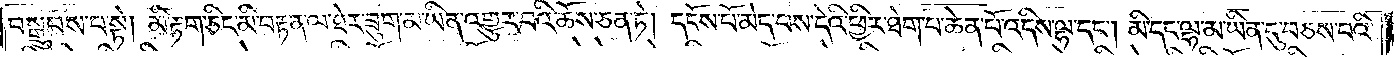བསྒྲུབས་པ་སྟེ། མི་རྟག་ཅིང་མི་བརྟན་ལ་ཐེར་ཟུག་མ་ཡིན་འགྱུར་བའི་ཆོས་ཅན་ཏེ། དངོས་པོ་མེད་པས་དེའི་ཕྱིར་ཐེག་པ་ཆེན་པོ་འདིས་ལྷ་དང༌། མི་དང་ལྷ་མ་ཡིན་དུ་བཅས་པའི་
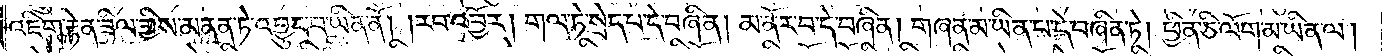འཇིག་རྟེན་ཟིལ་གྱིས་མནན་ཏེ་འབྱུང་བ་ཡིན་ནོ། །རབ་འབྱོར། གལ་ཏེ་སྲེད་པ་དེ་བཞིན། མ་ནོར་བ་དེ་བཞིན། གཞན་མ་ཡིན་པ་དེ་བཞིན་ཏེ། ཕྱིན་ཅི་ལོག་མ་ཡིན་ལ།
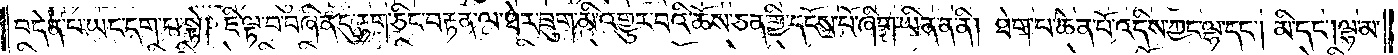བདེན་པ་ཡང་དག་པ་སྟེ། ཇི་ལྟ་བ་བཞིན་དུ་རྟག་ཅིང་བརྟན་ལ་ཐེར་ཟུག་མི་འགྱུར་བའི་ཆོས་ཅན་གྱི་དངོས་པོ་ཞིག་ཡིན་ན་ནི། ཐེག་པ་ཆེན་པོ་འདིས་ཀྱང་ལྷ་དང༌། མི་དང༌། ལྷ་མ་
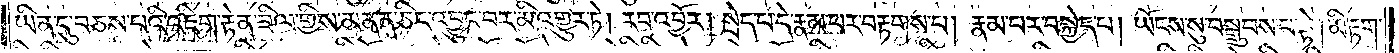ཡིན་དུ་བཅས་པའི་འཇིག་རྟེན་ཟིལ་གྱིས་མནན་ཅིང་འབྱུང་བར་མི་འགྱུར་ཏེ། རབ་འབྱོར། སྲེད་པ་དེ་རྣམ་པར་བརྟགས་པ། རྣམ་པར་བསྐྱེད་པ། ཡོངས་སུ་བསྒྲུབས་པ་སྟེ། མི་རྟག་
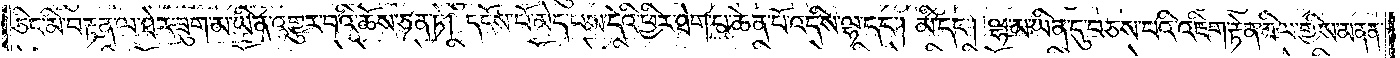ཅིང་མི་བརྟན་ལ་ཐེར་ཟུག་མ་ཡིན་འགྱུར་བའི་ཆོས་ཅན་ཏེ། དངོས་པོ་མེད་པས་དེའི་ཕྱིར་ཐེག་པ་ཆེན་པོ་འདིས་ལྷ་དང༌། མི་དང༌། ལྷ་མ་ཡིན་དུ་བཅས་པའི་འཇིག་རྟེན་ཟིལ་གྱིས་མནན་
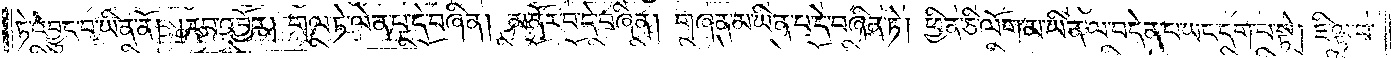ཏེ་འབྱུང་བ་ཡིན་ནོ། །རབ་འབྱོར། གལ་ཏེ་ལེན་པ་དེ་བཞིན། མ་ནོར་བ་དེ་བཞིན། གཞན་མ་ཡིན་པ་དེ་བཞིན་ཏེ། ཕྱིན་ཅི་ལོག་མ་ཡིན་ལ་བདེན་པ་ཡང་དག་པ་སྟེ། ཇི་ལྟ་བ་
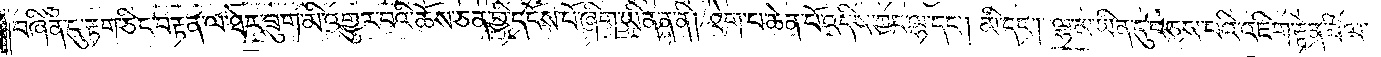བཞིན་དུ་རྟག་ཅིང་བརྟན་ལ་ཐེར་ཟུག་མི་འགྱུར་བའི་ཆོས་ཅན་གྱི་དངོས་པོ་ཞིག་ཡིན་ན་ནི། ཐེག་པ་ཆེན་པོ་འདིས་ཀྱང་ལྷ་དང༌། མི་དང༌། ལྷ་མ་ཡིན་དུ་བཅས་པའི་འཇིག་རྟེན་ཟིལ་
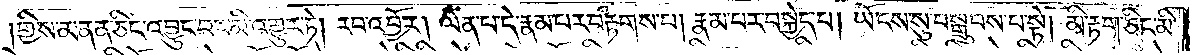གྱིས་མནན་ཅིང་འབྱུང་བར་མི་འགྱུར་ཏེ། རབ་འབྱོར། ལེན་པ་དེ་རྣམ་པར་བརྟགས་པ། རྣམ་པར་བསྐྱེད་པ། ཡོངས་སུ་བསྒྲུབས་པ་སྟེ། མི་རྟག་ཅིང་མི་
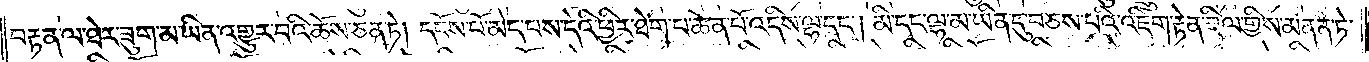བརྟན་ལ་ཐེར་ཟུག་མ་ཡིན་འགྱུར་བའི་ཆོས་ཅན་ཏེ། དངོས་པོ་མེད་པས་དེའི་ཕྱིར་ཐེག་པ་ཆེན་པོ་འདིས་ལྷ་དང༌། མི་དང་ལྷ་མ་ཡིན་དུ་བཅས་པའི་འཇིག་རྟེན་ཟིལ་གྱིས་མནན་ཏེ་
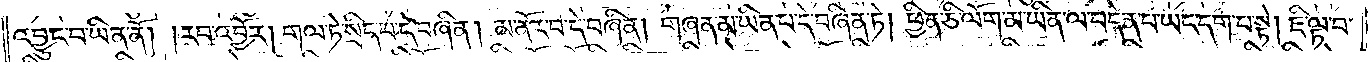འབྱུང་བ་ཡིན་ནོ། །རབ་འབྱོར། གལ་ཏེ་སྲིད་པ་དེ་བཞིན། མ་ནོར་བ་དེ་བཞིན། གཞན་མ་ཡིན་པ་དེ་བཞིན་ཏེ། ཕྱིན་ཅི་ལོག་མ་ཡིན་ལ་བདེན་པ་ཡང་དག་པ་སྟེ། ཇི་ལྟ་བ་
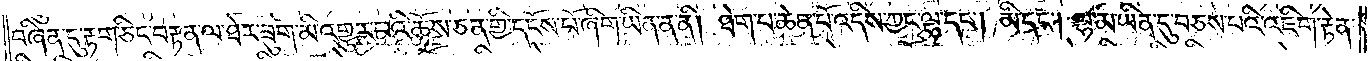བཞིན་དུ་རྟག་ཅིང་བརྟན་ལ་ཐེར་ཟུག་མི་འགྱུར་བའི་ཆོས་ཅན་གྱི་དངོས་པོ་ཞིག་ཡིན་ན་ནི། ཐེག་པ་ཆེན་པོ་འདིས་ཀྱང་ལྷ་དང༌། མི་དང༌། ལྷ་མ་ཡིན་དུ་བཅས་པའི་འཇིག་རྟེན་
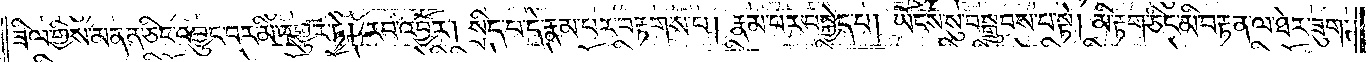ཟིལ་གྱིས་མནན་ཅིང་འབྱུང་བར་མི་འགྱུར་ཏེ། རབ་འབྱོར། སྲིད་པ་དེ་རྣམ་པར་བརྟགས་པ། རྣམ་པར་བསྐྱེད་པ། ཡོངས་སུ་བསྒྲུབས་པ་སྟེ། མི་རྟག་ཅིང་མི་བརྟན་ལ་ཐེར་ཟུག་
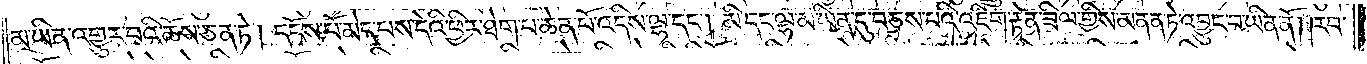མ་ཡིན་འགྱུར་བའི་ཆོས་ཅན་ཏེ། དངོས་པོ་མེད་པས་དེའི་ཕྱིར་ཐེག་པ་ཆེན་པོ་འདིས་ལྷ་དང༌། མི་དང་ལྷ་མ་ཡིན་དུ་བཅས་པའི་འཇིག་རྟེན་ཟིལ་གྱིས་མནན་ཏེ་འབྱུང་བ་ཡིན་ནོ། །རབ་
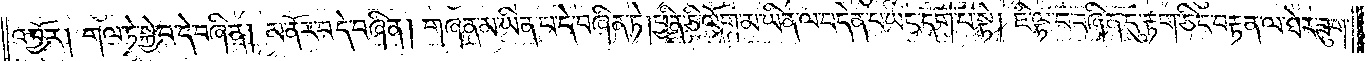འབྱོར། གལ་ཏེ་སྐྱེ་བ་དེ་བཞིན། མ་ནོར་བ་དེ་བཞིན། གཞན་མ་ཡིན་པ་དེ་བཞིན་ཏེ། ཕྱིན་ཅི་ལོག་མ་ཡིན་ལ་བདེན་པ་ཡང་དག་པ་སྟེ། ཇི་ལྟ་བ་བཞིན་དུ་རྟག་ཅིང་བརྟན་ལ་ཐེར་ཟུག་
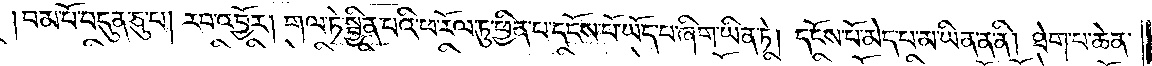བམ་པོ་བདུན་ཅུ་པ། །རབ་འབྱོར། གལ་ཏེ་སྦྱིན་པའི་ཕ་རོལ་ཏུ་ཕྱིན་པ་དངོས་པོ་ཡོད་པ་ཞིག་ཡིན་ཏེ། དངོས་པོ་མེད་པ་མ་ཡིན་ན་ནི། ཐེག་པ་ཆེན་
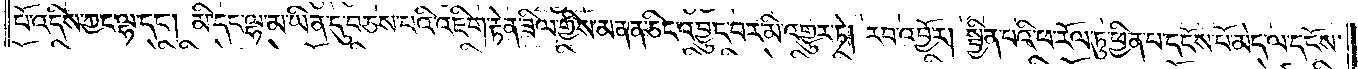པོ་འདིས་ཀྱང་ལྷ་དང༌། མི་དང་ལྷ་མ་ཡིན་དུ་བཅས་པའི་འཇིག་རྟེན་ཟིལ་གྱིས་མནན་ཅིང་འབྱུང་བར་མི་འགྱུར་ཏེ། རབ་འབྱོར། སྦྱིན་པའི་ཕ་རོལ་ཏུ་ཕྱིན་པ་དངོས་པོ་མེད་ལ་དངོས་
